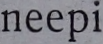neepi
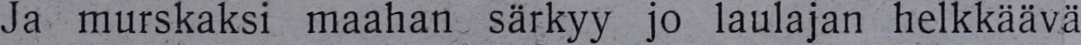Ja murskaksi maahan särkyy jo laulajan helkkäävä
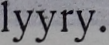lyyry.
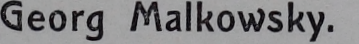Georg Malkowsky.
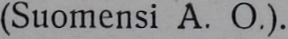(Suomensi A. O.).
